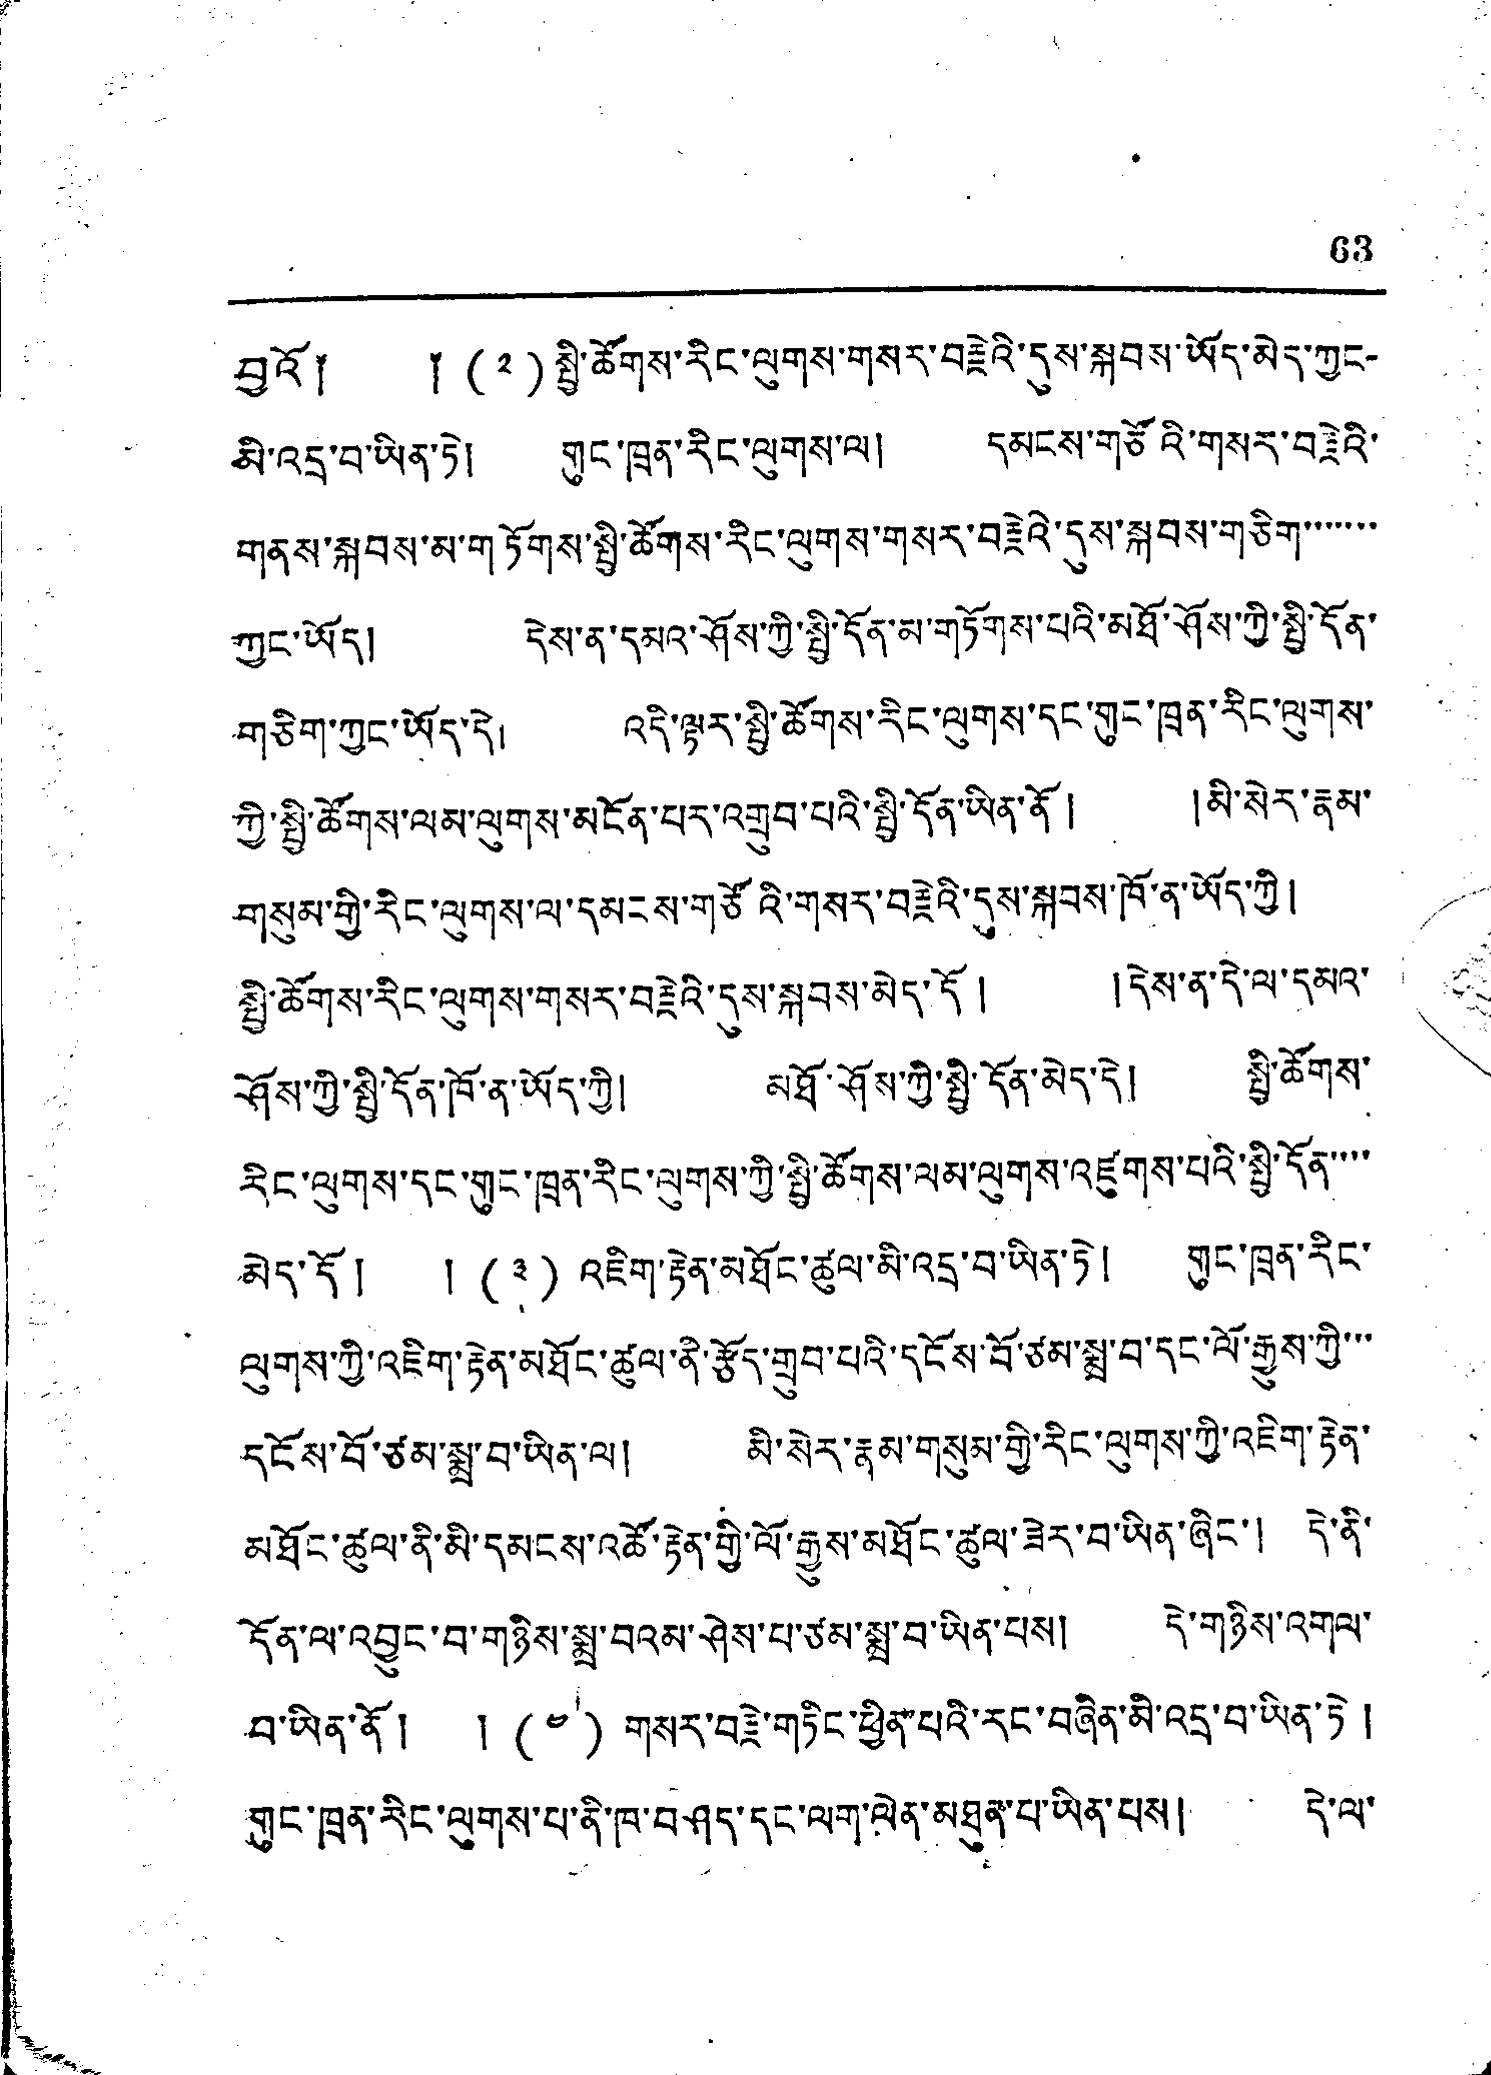63
བྱའོ༐ ༐ (༢)སྤྱི་ཚོགས་རིང་ལུགས་གསར་བརྗེའི་དུས་སྐབས་ཡོད་མེད་ཀྱང་
མི་འདྲ་བ་ཡིན་ཏེ། གུང་ཁྲན་རིང་ལུགས་ལ། དམངས་གཙོའི་གསར་བརྗེའི་
གནས་སྐབས་མ་གཏོགས་སྤྱི་ཚོགས་རིང་ལུགས་གསར་བརྗེའི་དུས་སྐབས་གཅིག་་་་་་་
ཀྱང་ཡོད། དེས་ན་དམའ་ཤོས་ཀྱི་སྤྱི་དོན་མ་གཏོགས་པའི་མཐོ་ཤོས་ཀྱི་སྤྱི་དོན་
གཅིག་ཀྱང་ཡོད་དེ། འདི་ལྟར་སྤྱི་ཚོགས་རིང་ལུགས་དང་གུང་ཁྲན་རིང་ལུགས་
ཀྱི་སྤྱི་ཚོགས་ལམ་ལུགས་མངོན་པར་འགྲུབ་པའི་སྤྱི་དོན་ཡིན་ནོ ། །མི་སེར་རྣམ་
གསུམ་གྱི་རིང་ལུགས་ལ་དམངས་གཙོའི་གསར་བརྗེའི་དུས་སྐབས་ཁོ་ན་ཡོད་ཀྱི།
སྤྱི་ཚོགས་རིང་ལུགས་གསར་བརྗེའི་དུས་སྐབས་མེད་དོ། །དེས་ན་དེ་ལ་དམའ་
ཤོས་ཀྱི་སྤྱི་དོན་ཁོ་ན་ཡོད་ཀྱི། མཐོ་ཤོས་ཀྱི་སྤྱེ་དོན་མེད་དེ། སྤྱི་ཚོགས་
རིང་ལུགས་དང་གུང་ཁྲན་རིང་ལུགས་ཀྱི་སྤྱི་ཚོགས་ལམ་ལུགས་འཛུགས་པའི་སྤྱི་དོན་་་་
མེད་དོ ། ། (༣) འཇིག་རྟེན་མཐོང་ཚུལ་མི་འདྲ་བ་ཡིན་ཏེ། གུང་ཁྲན་རིང་
ལུགས་ཀྱི་འཇིག་རྟེན་མཐོང་ཚུལ་ནི་རྩོད་གྲུབ་པའི་དངོས་བོ་ཙམ་སྨྲ་བ་དང་ལོ་རྒྱུས་ཀྱི་་་
དངོས་བོ་ཙམ་སྨྲ་བ་ཡིན་ལ། མི་སེར་རྣམ་གསུལ་གྱི་རིང་ལུགས་ཀྱི་འཇིག་རྟེན་
མཐོང་ཚུལ་ནི་མི་དམངས་འཚོ་རྟེན་གྱི་ལོ་རྒྱུས་མཐོང་ཚུལ་ཟེར་བ་ཡིན་ཞིང་། དེ་ནི་
དོན་ལ་འབྱུང་བ་གཉིས་སྨྲ་བའམ་ཤེས་པ་ཙམ་སྨྲ་བ་ཡིན་པས། དེ་གཉིས་འགལ་
བ་ཡིན་ནོ། ། (༤)གསར་བརྗེ་གཏིང་ཕྱིན་པའི་རང་བཞིན་མི་འདྲ་བ་ཡིན་ཏེ །
གུང་ཁྲན་རིང་ལུགས་པ་ནི་ཁ་བཤད་དང་ལག་ལེན་མཐུན་པ་ཡིན་པས། དེ་ལ་
